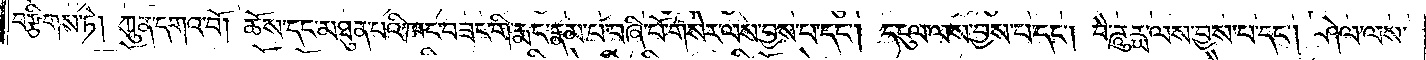བརྩིགས་ཏེ། ཀུན་དགའ་བོ། ཆོས་དང་མཐུན་པའི་ཁང་བཟང་གི་རྨང་རྣམ་པ་བཞི་པོ་གསེར་ལས་བྱས་པ་དང༌། དངུལ་ལས་བྱས་པ་དང༌། བཻ་ཌཱུརྻ་ལས་བྱས་པ་དང༌། ཤེལ་ལས་
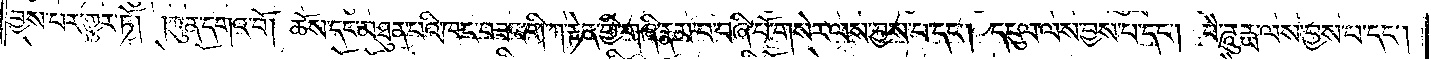བྱས་པར་གྱུར་ཏོ། །ཀུན་དགའ་བོ། ཆོས་དང་མཐུན་པའི་ཁང་བཟང་གི་ཀ་རྟེན་གྱི་གཞི་རྣམ་པ་བཞི་པོ་གསེར་ལས་བྱས་པ་དང༌། དངུལ་ལས་བྱས་པ་དང༌། བཻ་ཌཱུརྻ་ལས་བྱས་པ་དང༌།
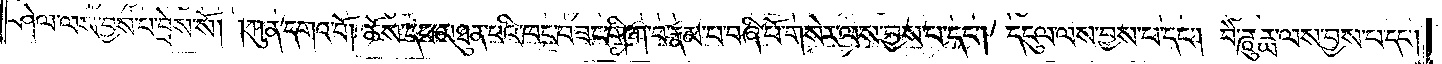ཤེལ་ལས་བྱས་པ་བྲེས་སོ། །ཀུན་དགའ་བོ། ཆོས་དང་མཐུན་པའི་ཁང་བཟང་གི་ཀ་བ་རྣམ་པ་བཞི་པོ་གསེར་ལས་བྱས་པ་དང༌། དངུལ་ལས་བྱས་པ་དང༌། བཻ་ཌཱུརྻ་ལས་བྱས་པ་དང༌།
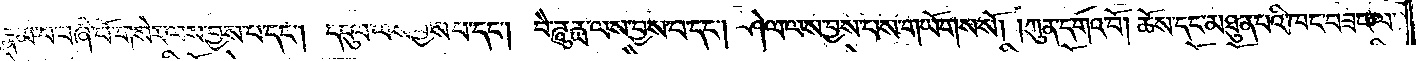རྣམ་པ་བཞི་པོ་གསེར་ལས་བྱས་པ་དང་།དངུལ་ལས་བྱས་པ་དང༌། བཻ་ཌཱུརྻ་ལས་བྱས་པ་དང༌། ཤེལ་ལས་བྱས་པས་གཡོགས་སོ། །ཀུན་དགའ་བོ། ཆོས་དང་མཐུན་པའི་ཁང་བཟང་ལ་
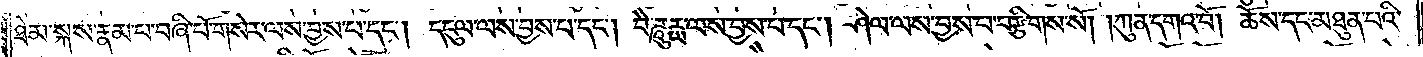ཐེམ་སྐས་རྣམ་པ་བཞི་པོ་གསེར་ལས་བྱས་པ་དང༌། དངུལ་ལས་བྱས་པ་དང༌། བཻ་ཌཱུརྻ་ལས་བྱས་པ་དང༌། ཤེལ་ལས་བྱས་པ་བརྩིགས་སོ། །ཀུན་དགའ་བོ། ཆོས་དང་མཐུན་པའི་
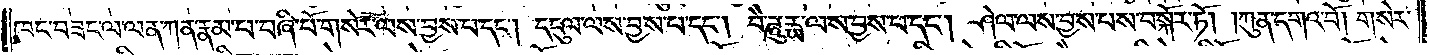ཁང་བཟང་ལ་ལན་ཀན་རྣམ་པ་བཞི་པོ་གསེར་ལས་བྱས་པ་དང༌། དངུལ་ལས་བྱས་པ་དང༌། བཻ་ཌཱུརྻ་ལས་བྱས་པ་དང༌། ཤེལ་ལས་བྱས་པས་བསྐོར་ཏོ། །ཀུན་དགའ་བོ། གསེར་
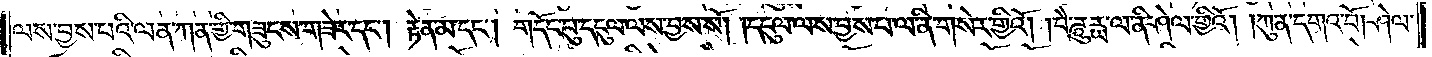ལས་བྱས་པའི་ལན་ཀན་གྱི་གཟུངས་གཟེར་དང༌། རྟེན་མ་དང༌། གདོང་བུ་དངུལ་ལས་བྱས་སོ། །དངུལ་ལས་བྱས་པ་ལ་ནི་གསེར་གྱིའོ། །བཻ་ཌཱུརྻ་ལ་ནི་ཤེལ་གྱིའོ། །ཀུན་དགའ་བོ། ཤེལ་
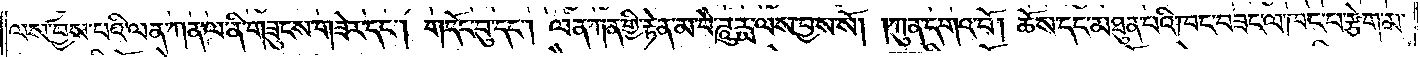ལས་བྱས་པའི་ལན་ཀན་ལ་ནི་གཟུངས་གཟེར་དང༌། གདོང་བུ་དང༌། ལན་ཀན་གྱི་རྟེན་མ་བཻ་ཌཱུརྻ་ལས་བྱས་སོ། །ཀུན་དགའ་བོ། ཆོས་དང་མཐུན་པའི་ཁང་བཟང་ལ་ཁང་པ་རྩིག་མ་
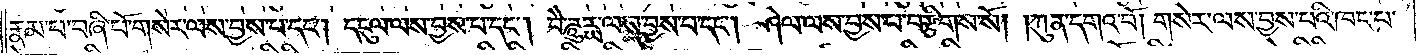རྣམ་པ་བཞི་པོ་གསེར་ལས་བྱས་པ་དང་། དངུལ་ལས་བྱས་པ་དང་། བཻ་ཌཱུརྻ་ལས་བྱས་པ་དང་། ཤེལ་ལས་བྱས་པ་བརྩིགས་སོ། །ཀུན་དགའ་བོ། གསེར་ལས་བྱས་པའི་ཁང་པ་
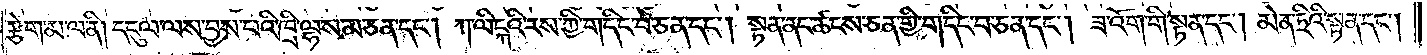རྩེག་མ་ལ་ནི། དངུལ་ལས་བྱས་པའི་ཁྲི་ལྷས་མ་ཅན་དང༌། ཀ་ལིངྐའི་རས་ཀྱི་གདིང་བ་ཅན་དང་།སྟན་ནང་ཚངས་ཅན་གྱི་གདིང་བ་ཅན་དང་། ཟ་འོག་གི་སྟན་དང་། མེན་ཏྲིའི་སྟན་དང་།
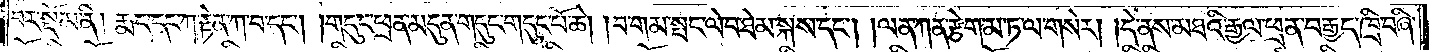བར་སྡོམ་ནི། རྨང་དང་ཀ་རྟེན་ཀ་བ་དང༌། གདུང་ཕྲན་མདུན་གདུང་གདུང་པོ་ཆེ། །བ་གམ་སྤང་ལེབ་ཐེམ་སྐས་དང༌། །ལན་ཀན་རྩེག་མ་ཏ་ལ་གསེར། །དེ་ནས་མཐའི་རྒྱལ་ཕྲན་བརྒྱད་ཁྲི་བཞི་
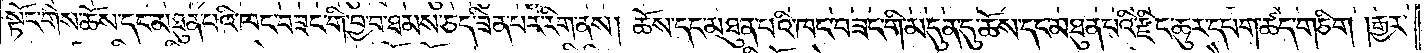སྟོང་གིས་ཆོས་དང་མཐུན་པའི་ཁང་བཟང་གི་བྱ་བ་ཐམས་ཅད་ཟིན་པར་རིག་ནས། ཆོས་དང་མཐུན་པའི་ཁང་བཟང་གི་མདུན་དུ་ཆོས་དང་མཐུན་པའི་རྫིང་ཚུར་དཔག་ཚད་གཅིག །རྒྱར་
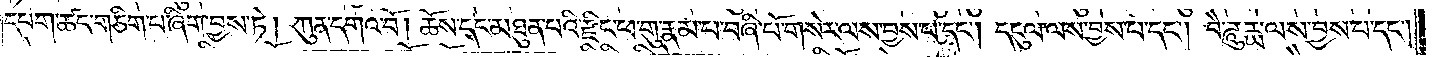དཔག་ཚད་གཅིག་པ་ཞིག་བྱས་ཏེ། ཀུན་དགའ་བོ། ཆོས་དང་མཐུན་པའི་རྫིང་ཕ་གུ་རྣམ་པ་བཞི་པོ་གསེར་ལས་བྱས་པ་དང༌། དངུལ་ལས་བྱས་པ་དང༌། བཻ་ཌཱུཪྻ་ལས་བྱས་པ་དང༌།
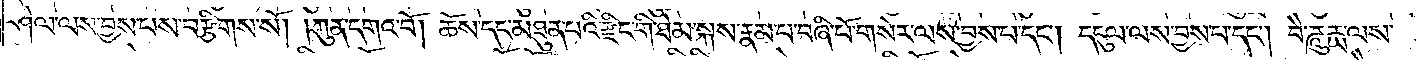ཤེལ་ལས་བྱས་པས་བརྩིགས་སོ། །ཀུན་དགའ་བོ། ཆོས་དང་མཐུན་པའི་རྫིང་གི་ཐེམ་སྐས་རྣམ་པ་བཞི་པོ་གསེར་ལས་བྱས་པ་དང༌། དངུལ་ལས་བྱས་པ་དང༌། བཻ་ཌཱུཪྻ་ལས་
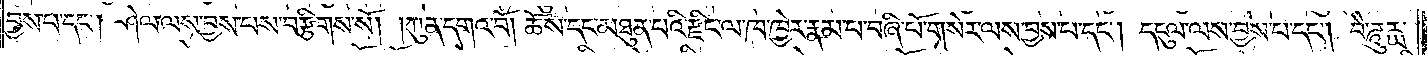བྱས་པ་དང༌། ཤེལ་ལས་བྱས་པས་བརྩིགས་སོ། །ཀུན་དགའ་བོ། ཆོས་དང་མཐུན་པའི་རྫིང་ལ་ཁ་ཁྱེར་རྣམ་པ་བཞི་པོ་གསེར་ལས་བྱས་པ་དང༌། དངུལ་ལས་བྱས་པ་དང༌། བཻ་ཌཱུརྱ་
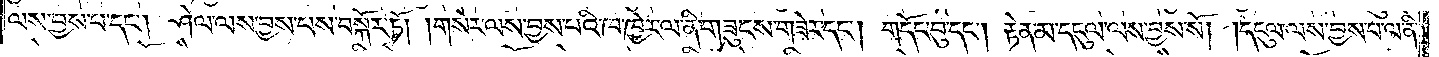ལས་བྱས་པ་དང༌། ཤེལ་ལས་བྱས་པས་བསྐོར་ཏོ། །གསེར་ལས་བྱས་པའི་ཁ་ཁྱེར་ལ་ནི་གཟུངས་གཟེར་དང༌། གདོང་བུ་དང༌། རྟེན་མ་དངུལ་ལས་བྱས་སོ། །དངུལ་ལས་བྱས་པ་ལ་ནི་
